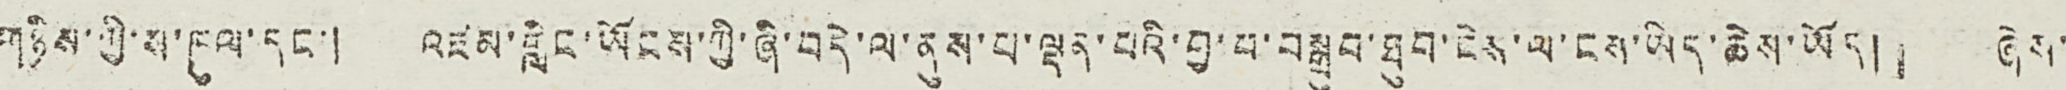གཉིས་ཀྱི་ས་ཁུལ་དང་། འཛམ་གླིང་ཡོངས་ཀྱི་ཞི་བདེ་ལ་ནུས་པ་ལྡན་པའི་བྱ་བ་བསྒྲུབ་ཐུབ་ངེས་ལ་ངས་ཡིད་ཆེས་ཡོད།』 ཞེས་
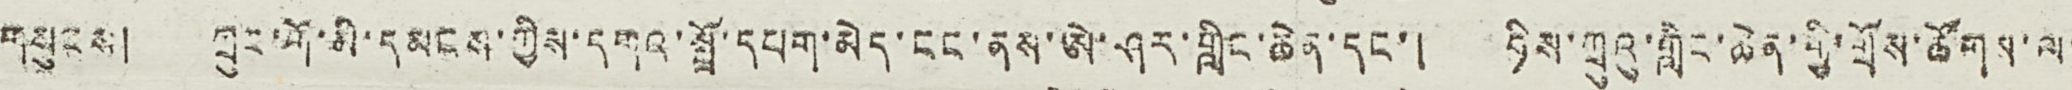གསུངས། ཀྲུང་གོ་མི་དམངས་ཀྱིས་དགའ་སྤྲོ་དཔག་མེད་ངང་ནས་ཨེ་ཤར་གླིང་ཆེན་དང་། ཧིས་ཀྲུའུ་གླིང་ཆེན་གྱི་གྲོས་ཚོགས་ལ་
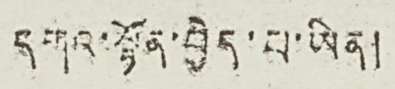དགའ་སྟོན་བྱེད་པ་ཡིན།
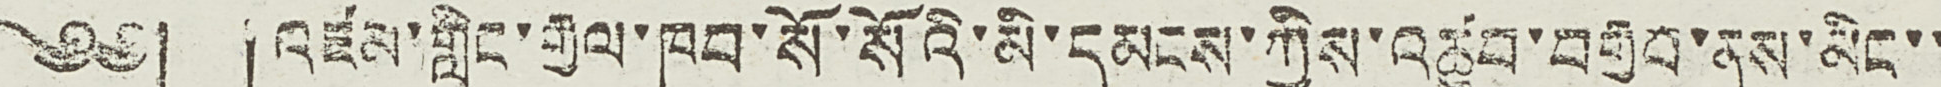༄༅། །འཛམ་གླིང་རྒྱལ་ཁབ་སོ་སོའི་མི་དམངས་ཀྱིས་འཚུབ་བརྒྱབ་ནས་མིང་་
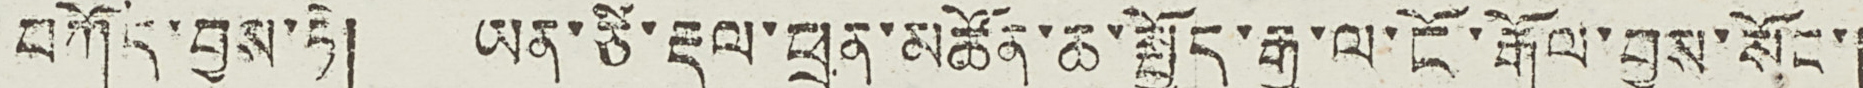བཀོད་བྱས་ཏེ། ཡན་ཙི་རྡུལ་ཕྲན་མཚོན་ཆ་སྤྱོད་རྒྱུ་ལ་ངོ་རྒོལ་བྱས་སོང་།
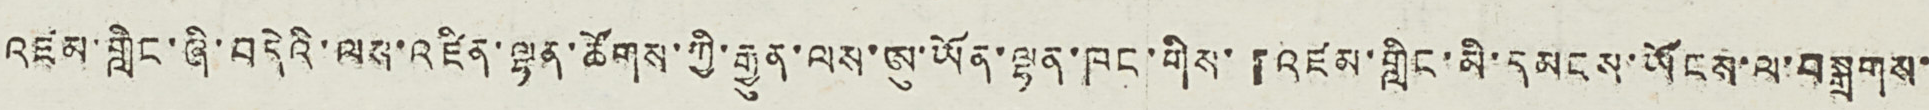འཛམ་གླིང་ཞི་བདེའི་ལས་འཛིན་ལྷན་ཚོགས་ཀྱི་རྒྱུན་ལས་ཨུ་ཡོན་ལྷན་ཁང་གིས་『འཛམ་གླིང་མི་དམངས་ཡོངས་བསྒྲགས་
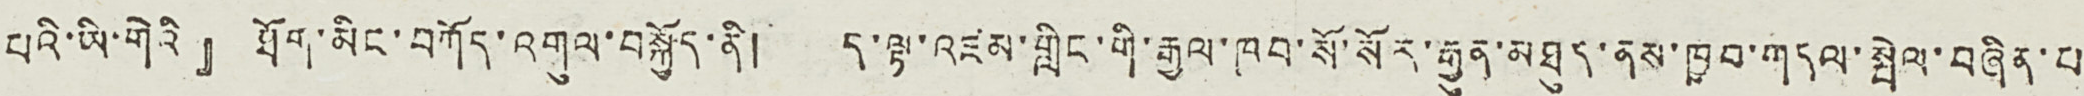པའི་ཡི་གེའི』 ཐོག་མིང་བཀོད་འགུལ་བསྐྱོད་ནི། ད་ལྟ་འཛམ་གླིང་གི་རྒྱལ་ཁབ་སོ་སོར་རྒྱུན་མཐུད་ནས་ཁྱབ་གདལ་སྤེལ་བཞིན་པ
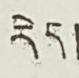རེད།
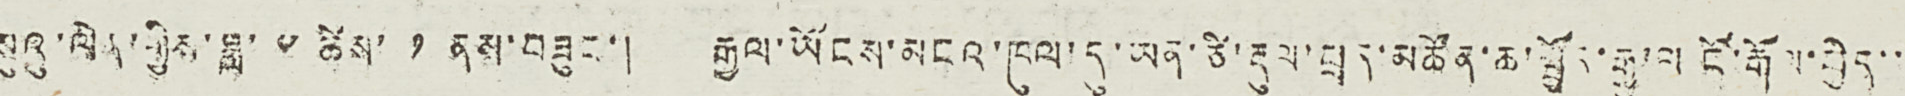སུའུ་ལེན་གྱིས་ཟླ་ ༤ ཚེས་ ༡ ནས་བཟུང་། རྒྱལ་ཡོངས་མངའ་ཁུལ་དུ་ཡན་ཙི་རྡུལ་ཕྲན་མཚོན་ཆ་སྤྱོད་རྒྱུ་ལ་ངོ་རྒོལ་བྱེད་་་
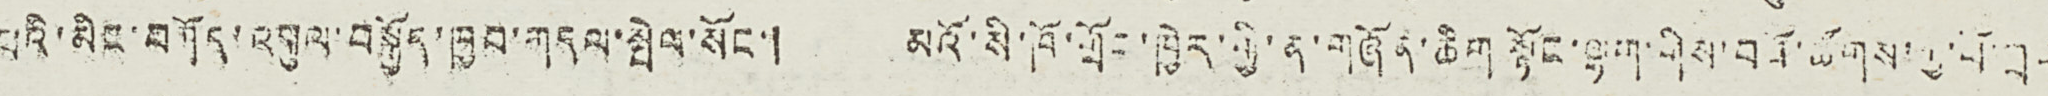པའི་མིང་བཀོད་འགུལ་བསྐྱོད་ཁྱབ་གདལ་སྤེལ་སོང་། མའོ་སི་ཁོ་གྲོང་ཁྱེར་གྱི་ན་གཞོན་ཆིག སྟོང་ལྷག་གིས་བཟོ་ཚོགས་རྒྱ་པོ་གྲང
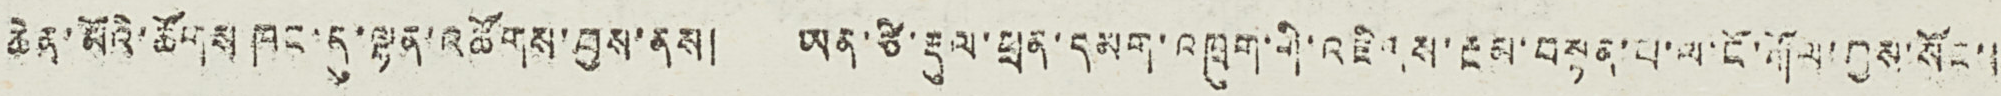ཆེན་མོའི་ཚོགས ཁང་དུ་ལྷན་འཚོགས་བྱས་ནས། ཡན་ཙི་རྡུལ་ཕྲན་དམག་འཁྲུག་གི་འཇིགས་རྔམ་བསྟན་པ་ལ་ངོ་རྒོལ་བྱས་སོང་།
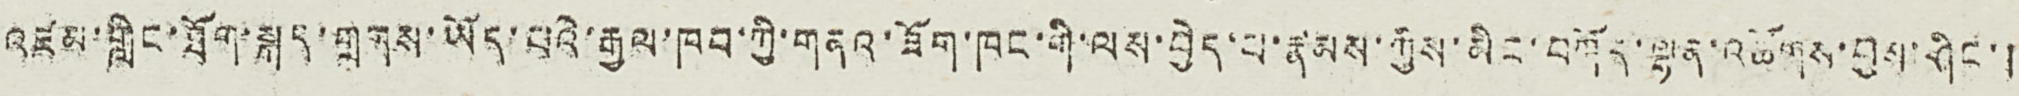འཛམ་གླིང་ཐོག་སྐད་གྲགས་ཡོད་པའི་རྒྱལ་ཁབ་ཀྱི་གནའ་ཟོག་ཁང་གི་ལས་བྱེད་པ་རྣམས་ཀྱིས་མིང་བཀོད་ལྷན་འཚོགས་བྱས་ཤིང་།
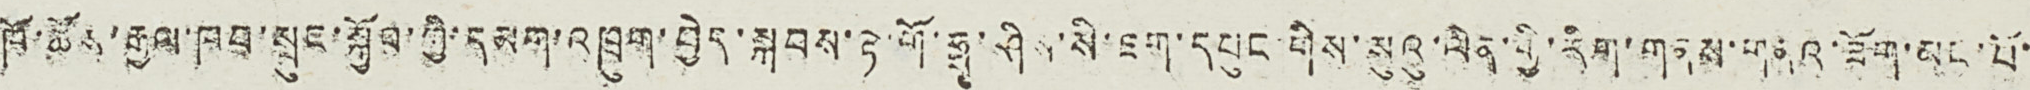ཁོ་ཚོས་རྒྱལ་ཁབ་སྲུང་སྐྱོབ་ཀྱི་དམག་འཁྲུག་བྱེད་སྐབས་ཏེ་གོ་ཧྥ་ཤིས་སི་ཇག་དཔུང་གིས་སུའུ་ལེན་གྱི་རིག་གནས་གནའ་ཟོག་མང་པོ་
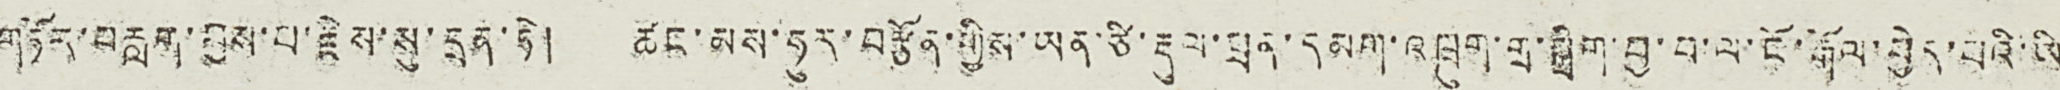གཏོར་བརླག་བྱས་པ་རྗེས་སུ་དྲན་ཏེ། ཚང་མས་ཧུར་བརྩོན་གྱིས་ཡན་ཙི་རྡུལ་ཕྲན་དམག་འཁྲུག་གྲ་སྒྲིག་བྱ་བ་ལ་ངོ་རྒོལ་བྱེད་པའི་ཡི
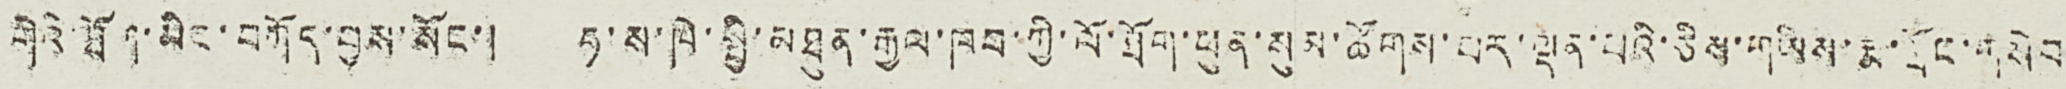གེའི་ཐོག་མིང་བཀོད་བྱས་སོང་། ཧ་ས་ཁེ་སྤྱི་མཐུན་རྒྱལ་ཁབ་ཀྱི་ལོ་ཐོག་ཕུན་སུམ་ཚོགས་པར་ལྡན་པའི་ཅིས་གཡིས་རྨ་གྲོང་གསེབ་
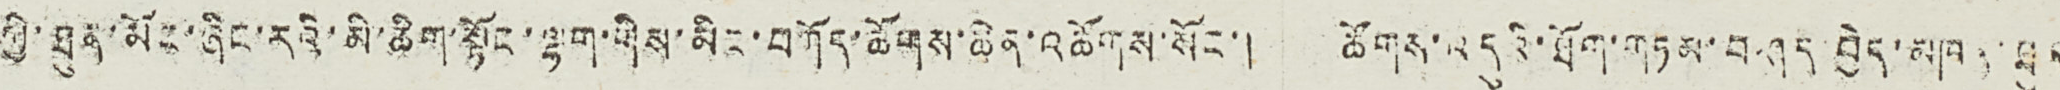ཀྱི་ཐུན་མོང་ཞིང་རའི་མི་ཆིག་སྟོང་ལྷག་གིས་མིང་བཀོད་ཚོགས་ཆེན་འཚོགས་སོང་། ཚོགས་འདུའི་ཐོག་གཏམ་བཤད་བྱེད་མཁན་ཐུན
